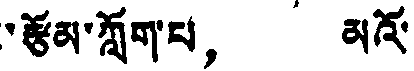རྩོམ་ཀློག་པ， མའོ་
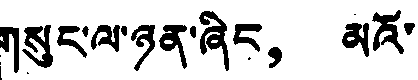གསུང་ལ་ཉན་ཞིང， མའོ་
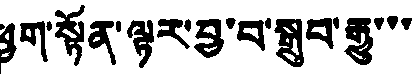ག་སྟོན་ལྟར་བྱ་བ་སྒྲུབ་རྒྱུ་་་
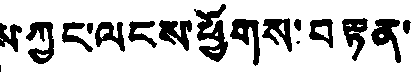ས་ཀྱང་ལངས་ཕྱོགས་བརྟན་
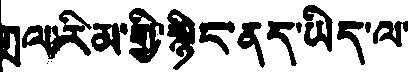ཀྲལ་རིམ་གྱི་སྙིང་ནད་ཡིད་ལ་
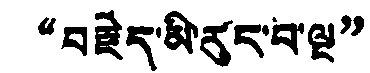，“བརྗེད་མི་རུད་པ་ལྔ”
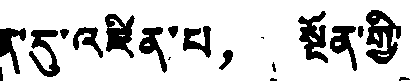ན་དུ་འཛིན་པ， སྔོན་གྱི་
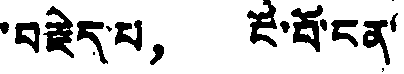བརྗེད་པ， ངོ་བོ་ངན་
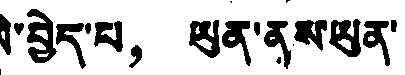་བྱེད་པ， ཡུན་ནས་ཡུན་
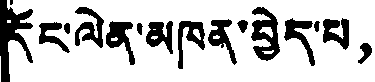དོང་ལེན་མཁན་བྱེད་པ，
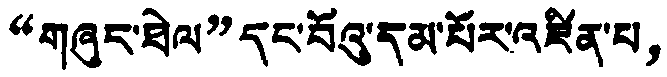“གཞུང་ཐེལ”དང་པོའུ་དམ་པོར་འཛིན་པ，
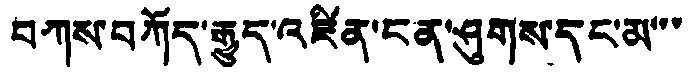བཀས་བཀོད་རྒྱུད་འཛིན་ངན་ཤུགས་དང་མ་་་
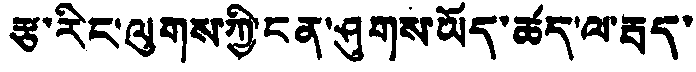རྩ་རིང་ལུགས་ཀྱི་ངན་ཤུགས་ཡོད་ཚད་ལ་རྦད་
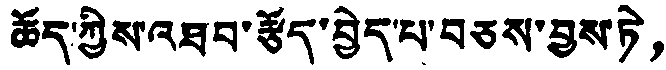ཆོད་ཀྱིས་འཐབ་རྩོད་བྱེད་པ་བཅས་བྱས་ཏེ，
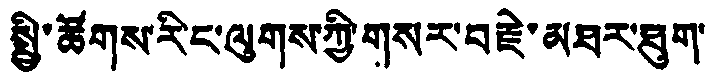སྤྱི་ཚོགས་རིང་ལུགས་ཀྱི་གསར་བརྗེ་མཐར་ཐུག་
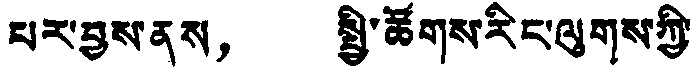པར་བྱས་ནས， སྤྱི་ཚོགས་རིང་ལུགས་ཀྱི་
